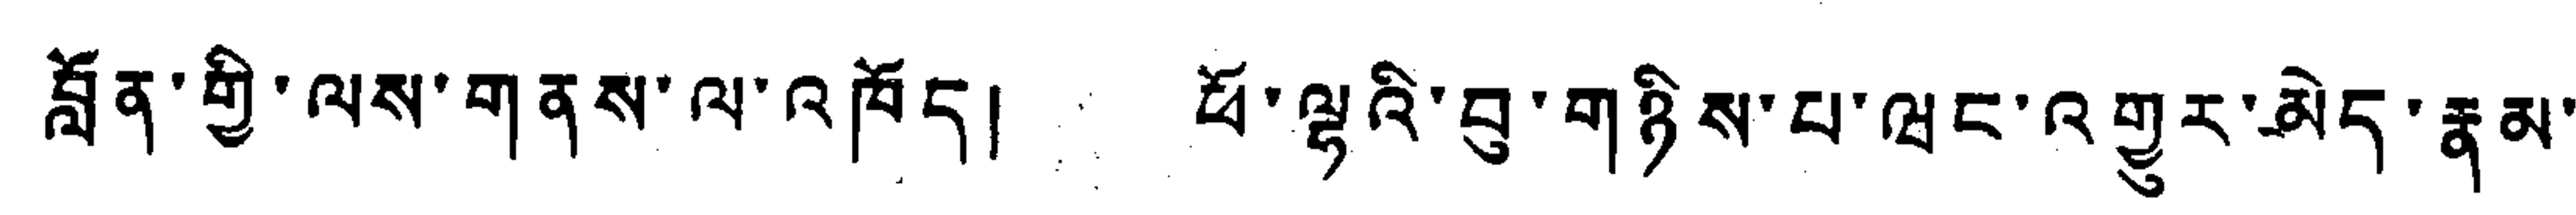བློན་གྱི་ལས་གནས་ལ་འཁོད། ཕོ་ལྷའི་བུ་གཉིས་པ་ཝང་འགྱུར་མེད་རྣམ་
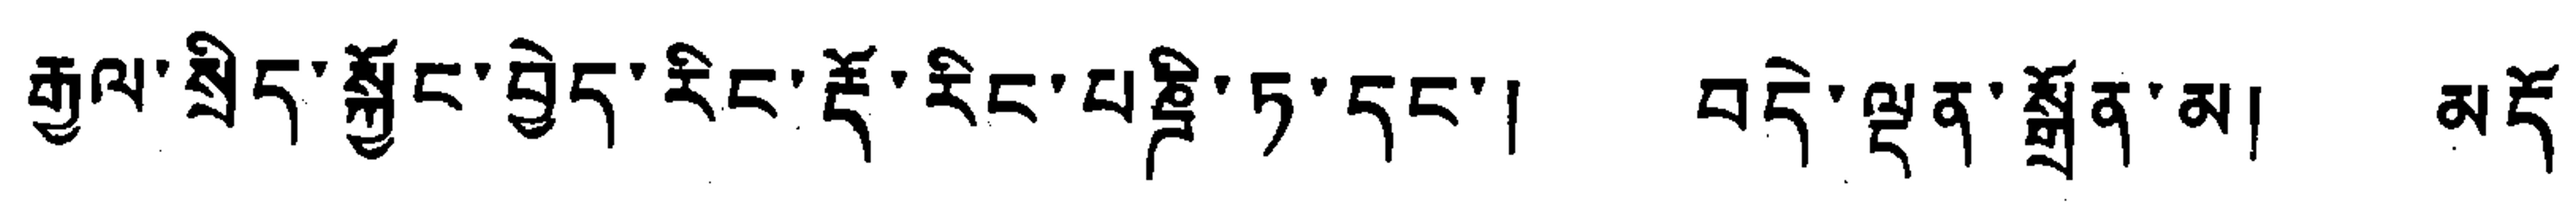རྒྱལ་སྲིད་སྐྱོང་བྱེད་རིང་རྡོ་རིང་པཎྜི་ཏ་དང་། བདེ་ལྡན་སྒྲོན་མ། མདོ་
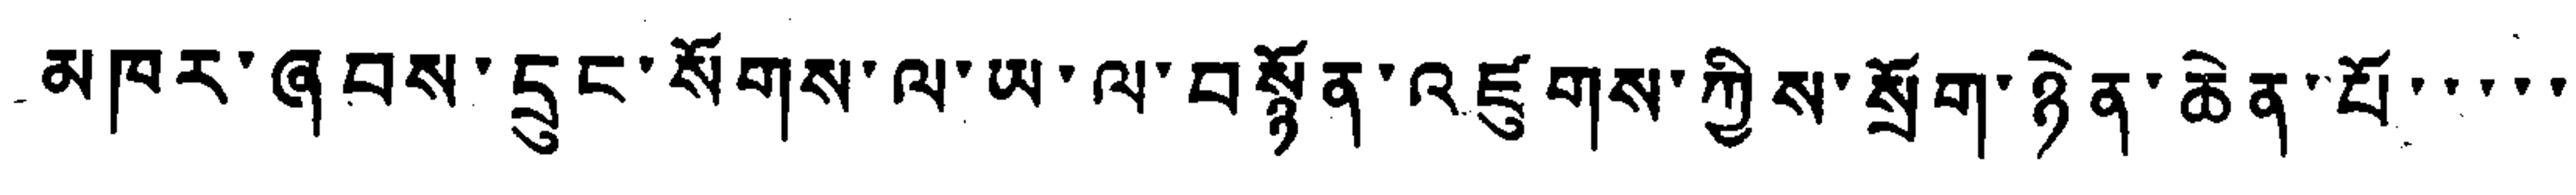མཁར་ཞབས་དྲུང་སོགས་ལ་ཡ་ལ་བསྟོན་འཛུགས་ཀྱིས་སྲོག་ཉེན་ཆེན་པོ་་་་་
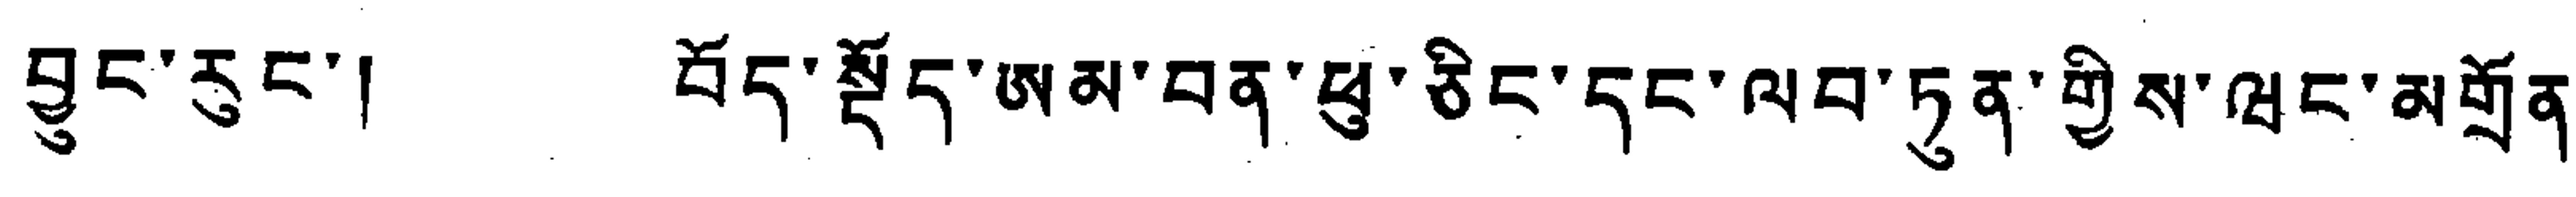བྱུང་རུང་། བོད་སྡོད་ཨམ་བན་ཕུ་ཅིང་དང་ལབ་ཏུན་གྱིས་ཝང་མགྲོན་
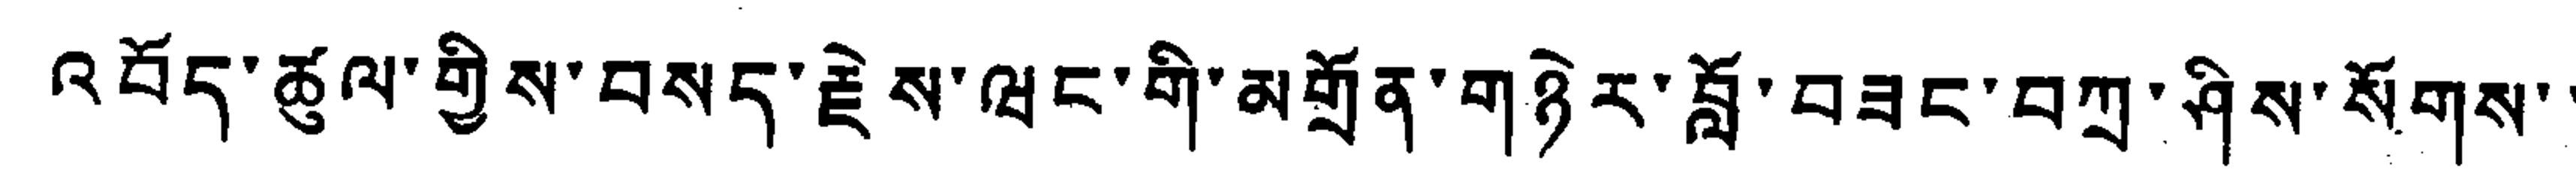འབོད་ཚུལ་གྱིས་བསད་རྗེས་ཝང་གི་མགྲོན་གཉེར་བློ་བཟང་བཀྲ་ཤིས་སོགས་་
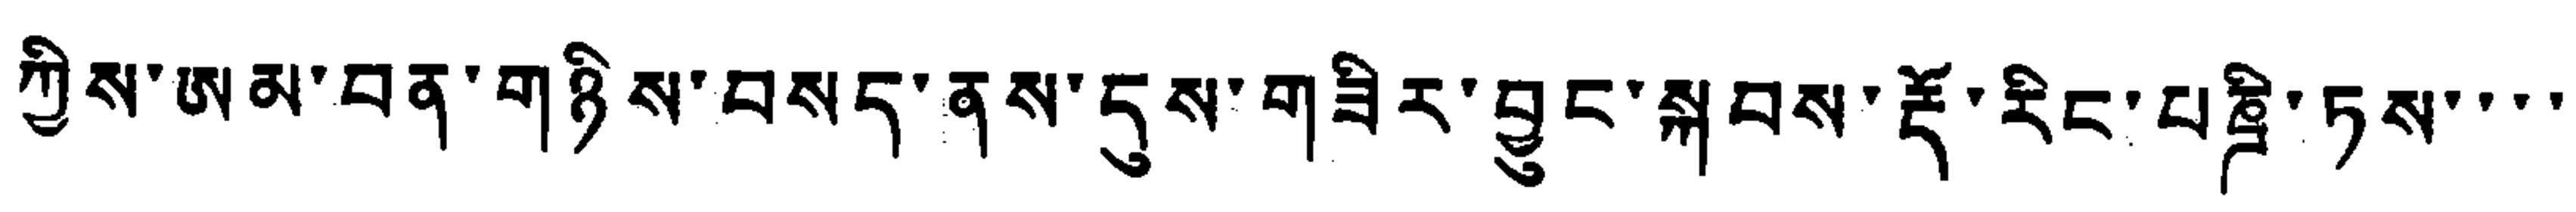ཀྱིས་ཨམ་བན་གཉིས་བསད་ནས་དུས་གཟིར་བྱུང་སྐབས་རྡོ་རིང་པཎྜི་ཏས་་་་
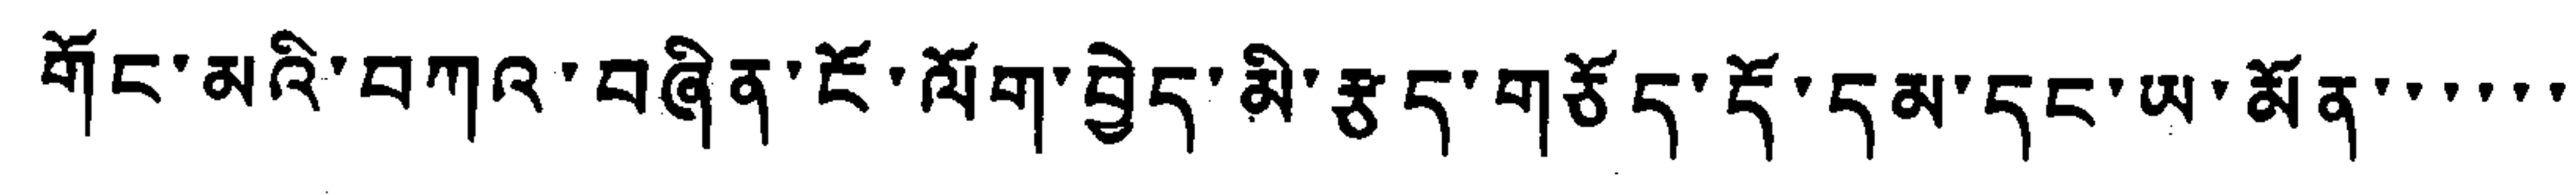གོང་མའི་བཀའ་བཞིན་ངོ་ལོག་བྱེད་མི་རྩད་གཅོད་དོ་དམ་དང་ཡ་མོན་་་་་་
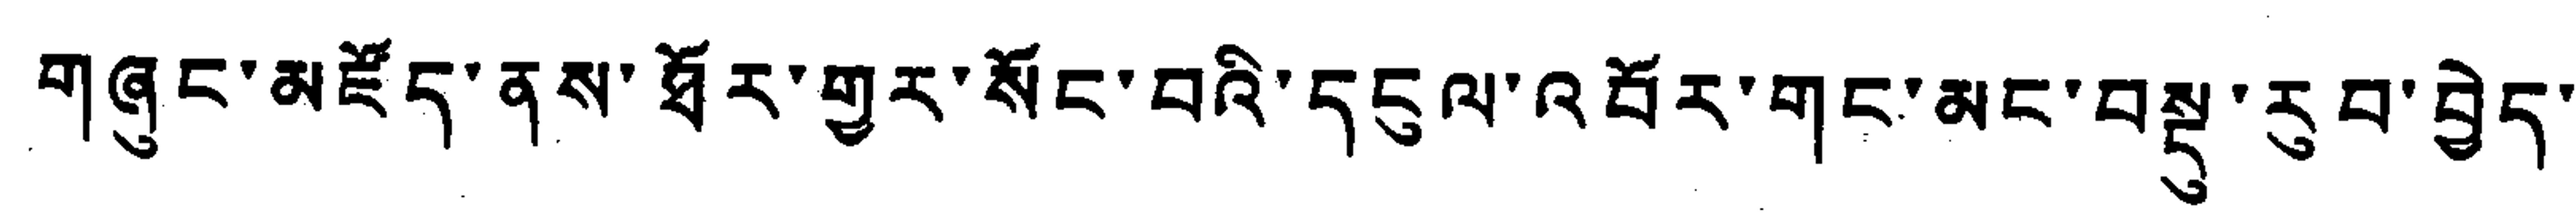གཞུང་མཛོད་ནས་ཐོར་གྱུར་སོང་བའི་དངུལ་འབོར་གང་མང་བསྔུ་རུབ་བྱེད་
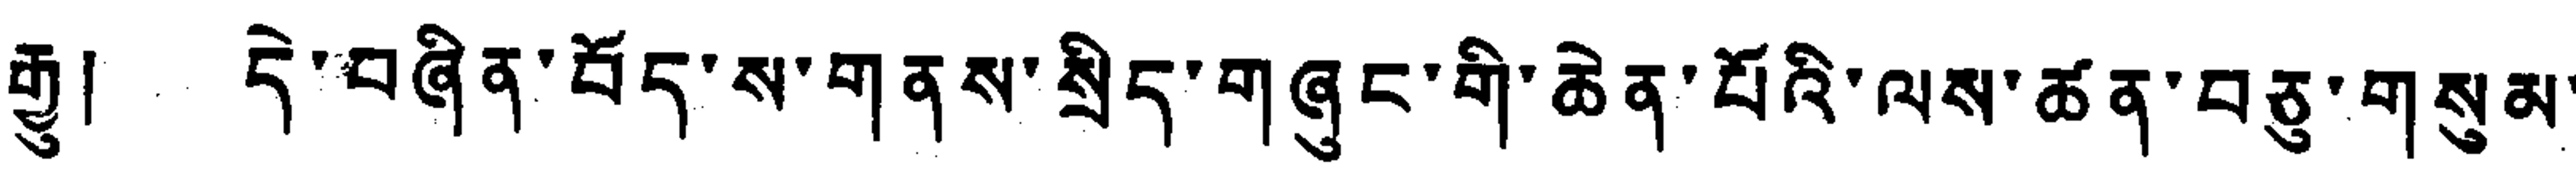རྒྱུ། དེ་བཞིན་བོད་ས་གནས་སྲིད་གཞུང་གི་ཆེན་པོའི་ལས་ཚན་བཅུ་གསུམ་
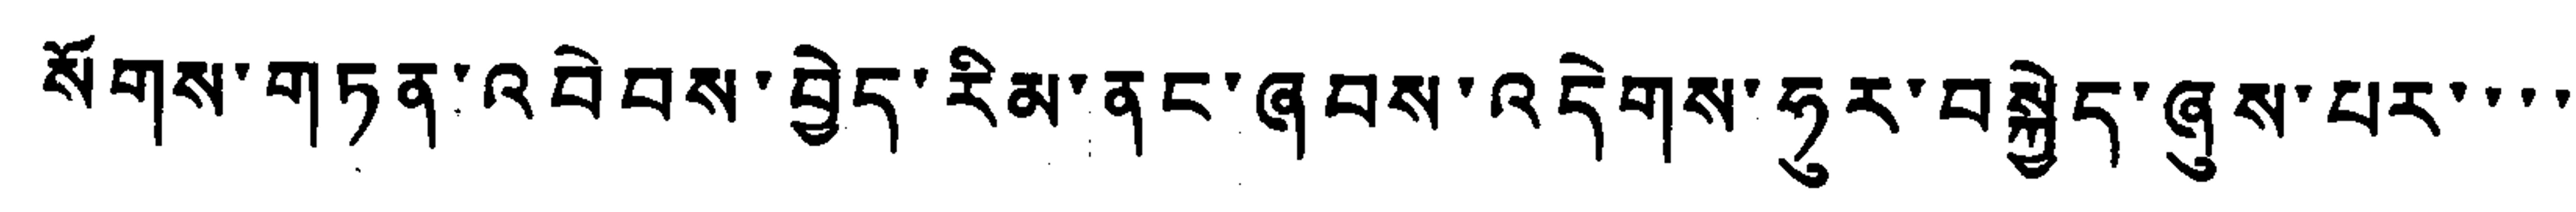སོགས་གཏན་འབེབས་བྱེད་རིམ་ནང་ཞབས་འདེགས་ཧུར་བསྐྱེད་ཞུས་པར་་་་
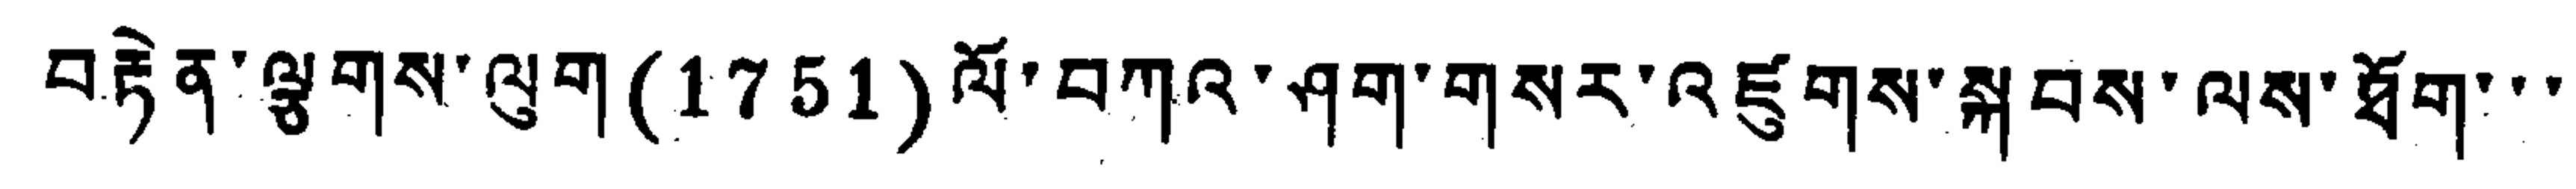བརྟེན་ལྕགས་ལུག (1751) ལོ་བཀའ་ཤག་གསར་འཛུགས་སྐབས་ལས་ཐོག་་་
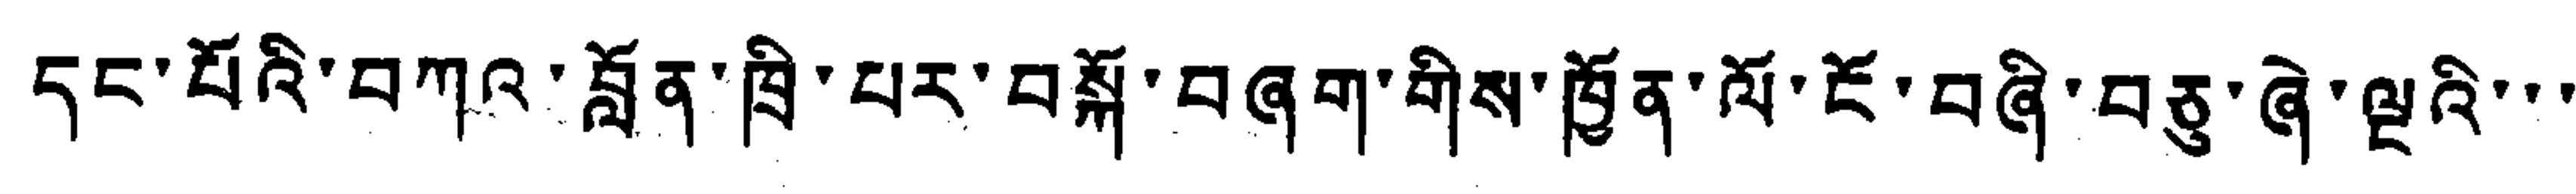དང་པོའི་བཀའ་བློན་ཁྲི་པར་བསྐོ་བཞག་གིས་ཁྱོན་ལོ་ངོ་བཞི་བཅུ་ཞེ་ལྔའི་་་
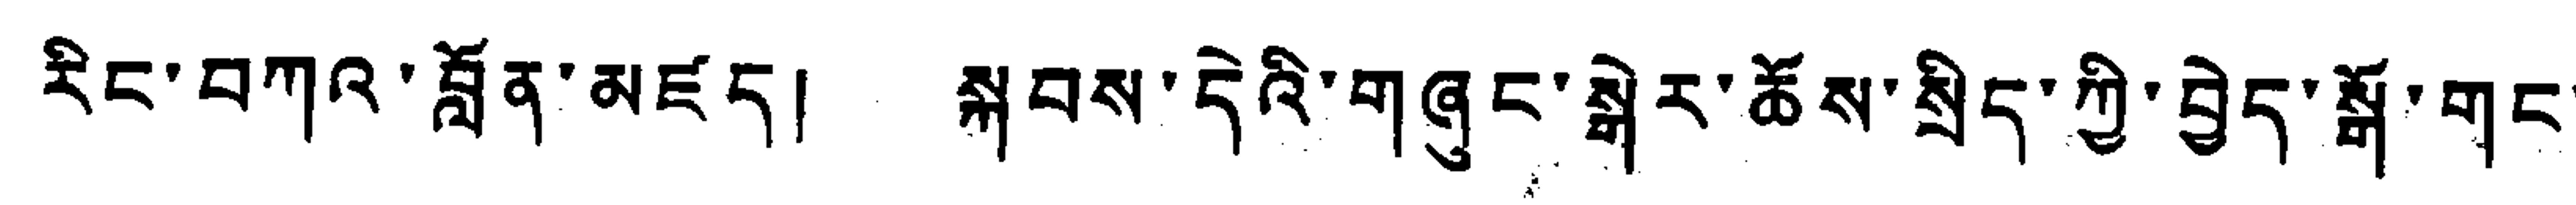རིང་བཀའ་བློན་མཛད། སྐབས་དེའི་གཞུང་སྒེར་ཆོས་སྲིད་ཀྱི་བྱེད་སྒྲོ་གང་
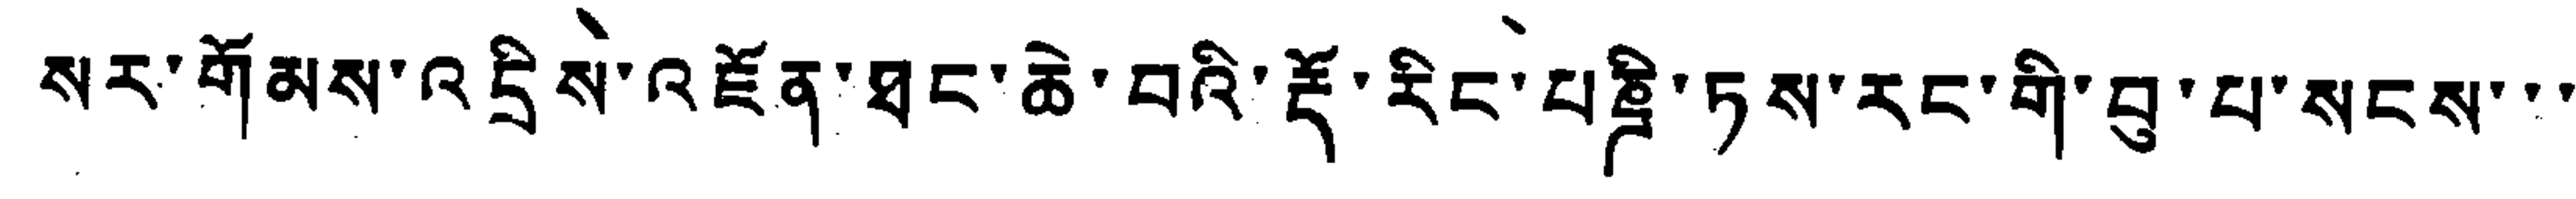སར་གོམས་འདྲིས་འཛོན་ཐང་ཆེ་བའི་རྡོ་རིང་པཎྜི་ཏས་རང་གི་བུ་པ་སངས་་་
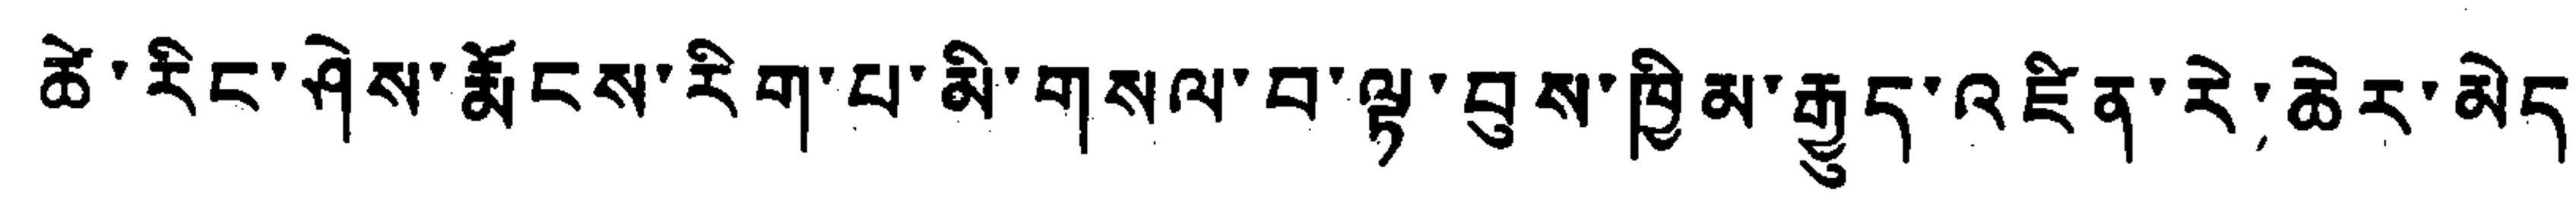ཚེ་རིང་ཤེས་རྨོངས་རིག་པ་མི་གསལ་བ་ལྟ་བུས་ཁྱིམ་རྒྱུད་འཛིན་རེ་ཆེར་མེད་
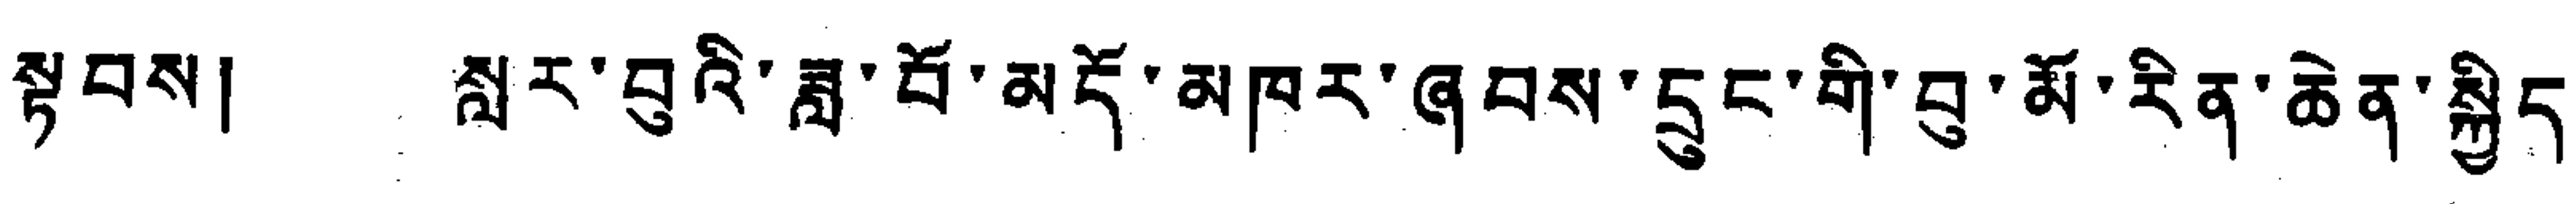སྟབས། སླར་བུའི་ཟླ་བོ་མདོ་མཁར་ཞབས་དྲུང་གི་བུ་མོ་རིན་ཆེན་སྐྱིད་
